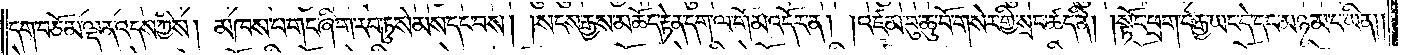དག་བཅོམ་ལྡན་འདས་ཀྱིས། མཁས་པ་གང་ཞིག་རབ་ཏུ་སེམས་དང་བས། །སངས་རྒྱས་མཆོད་རྟེན་དག་ལ་གོམ་འདོར་ན། །འཛམ་བུ་ཆུ་བོ་གསེར་གྱི་སྲང་ཚད་ནི། །སྟོང་ཕྲག་བརྒྱ་ཡང་དེ་དང་མཉམ་པ་ཡིན། །
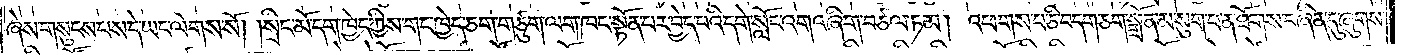ཞེས་གསུངས་པས་དེ་ཡང་ལེགས་སོ། །སྲིང་མོ་དག་ཁྱེད་ཀྱིས་གང་ཁྱེད་ཅག་གཙུག་ལག་ཁང་སྟོན་པར་བྱེད་པའི་དགེ་སློང་འགའ་ཞིག་བཙལ་ཏམ། འཕགས་པ་ཅི་བདག་ཅག་སྒྲོན་མ་སུག་པ་ན་ཐོགས་བཞིན་དུ་ཞུགས་
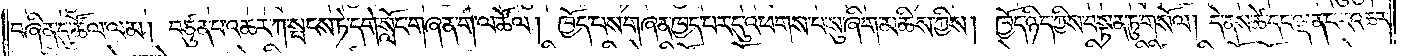བཞིན་དུ་ཚོལ་ལམ། བཙུན་པ་འཆར་ཀ་སྤངས་ཏེ་དགེ་སློང་གཞན་ག་ལ་ཚོལ། ཁྱོད་པས་གཞན་ཁྱད་པར་དུ་འཕགས་པ་སུ་ཞིག་མཆིས་ཀྱིས། ཁྱོད་ཉིད་ཀྱིས་བསྟན་ཏུ་གསོལ། དེ་ནས་ཚེ་དང་ལྡན་པར་འཆར་
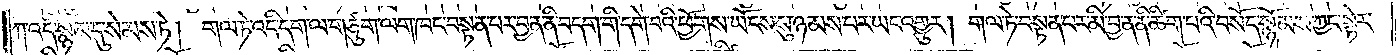ཀ་འདི་སྙམ་དུ་སེམས་ཏེ། གལ་ཏེ་འདི་དག་ལ་གཙུག་ལག་ཁང་བསྟན་པར་བྱ་ན་ནི་བདག་གི་དགེ་བའི་ཕྱོགས་ཡོངས་སུ་ཉམས་པར་ཡང་འགྱུར། གལ་ཏེ་བསྟན་པར་མི་བྱ་ན་ནི་ཚིག་པའི་བསོད་སྙོམས་ཀྱང་སྟེར་
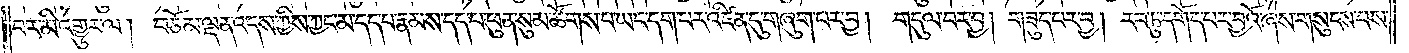བར་མི་འགྱུར་ལ། བཅོམ་ལྡན་འདས་ཀྱིས་ཀྱང་མ་དད་པ་རྣམས་དད་པ་ཕུན་སུམ་ཚོགས་པ་ཡང་དག་པར་འཛིན་དུ་གཞུག་པར་བྱ། གདུལ་བར་བྱ། གཟུད་པར་བྱ། རབ་ཏུ་དགོད་པར་བྱའོ་ཞེས་གསུངས་པས་
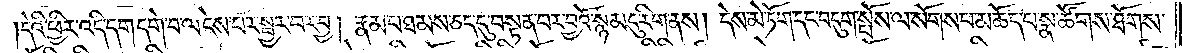དེའི་ཕྱིར་འདི་དག་དགེ་བ་ལ་ངེས་པར་སྦྱར་བར་བྱ། རྣམ་པ་ཐམས་ཅད་དུ་བསྟན་པར་བྱའོ་སྙམ་དུ་རིག་ནས། དེས་མེ་ཏོག་དང་བདུག་སྤོས་ལ་སོགས་པ་མཆོད་པ་སྣ་ཚོགས་ཐོགས་
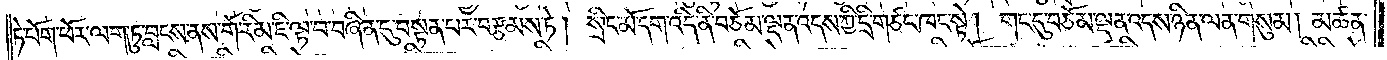ཏེ་པོག་ཕོར་ལག་ཏུ་བླངས་ནས་གོ་རིམ་ཇི་ལྟ་བ་བཞིན་དུ་བསྟན་པར་བརྩམས་ཏེ། སྲིང་མོ་དག་འདི་ནི་བཅོམ་ལྡན་འདས་ཀྱི་དྲི་གཙང་ཁང་སྟེ། གང་དུ་བཅོམ་ལྡན་འདས་ཉིན་ལན་གསུམ། མཚན་
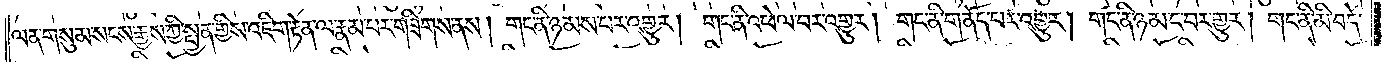ལན་གསུམ་སངས་རྒྱས་ཀྱི་སྤྱན་གྱིས་འཇིག་རྟེན་ལ་རྣམ་པར་གཟིགས་ནས། གང་ནི་ཉམས་པར་འགྱུར། གང་ནི་འཕེལ་བར་འགྱུར། གང་ནི་གནོད་པར་འགྱུར། གང་ནི་ཉམ་ང་བར་གྱུར། གང་ནི་མི་བདེ་
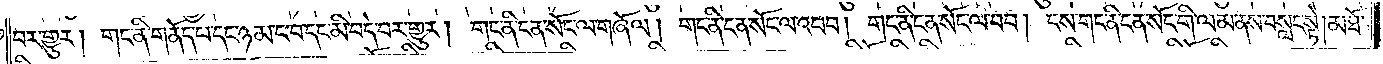བར་གྱུར། །གང་ནི་གནོད་པ་དང་ཉམ་ང་བ་དང་མི་བདེ་བར་གྱུར། གང་ནི་ངན་སོང་ལ་གཞོལ། གང་ནི་ངན་སོང་ལ་འབབ། གང་ནི་ངན་སོང་ལ་བབ། ངས་གང་ནི་ངན་སོང་གི་ལམ་ནས་བསླངས་ཏེ། མཐོ་
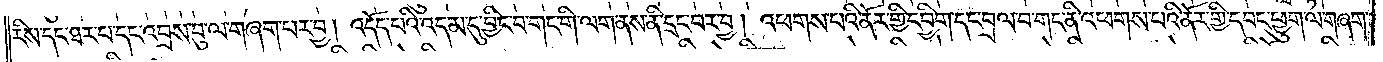རིས་དང་ཐར་པ་དང་འབྲས་བུ་ལ་གཞག་པར་བྱ། འདོད་པའི་འདམ་དུ་བྱིང་བ་གང་གི་ལག་ནས་ནི་དྲང་བར་བྱ། འཕགས་པའི་ནོར་གྱི་དབྱིག་དང་བྲལ་བ་གང་ནི་འཕགས་པའི་ནོར་གྱི་དབང་ཕྱུག་ལ་གཞག་
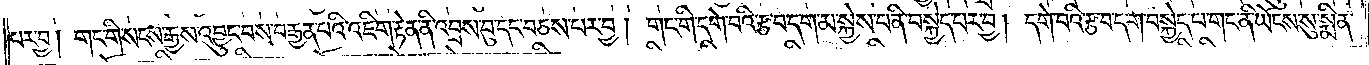པར་བྱ། གང་གི་སངས་རྒྱས་འབྱུང་བས་བརྒྱན་པའི་འཇིག་རྟེན་ནི་འབྲས་བུ་དང་བཅས་པར་བྱ། གང་གི་དགེ་བའི་རྩ་བ་དག་མ་སྐྱེས་པ་ནི་བསྐྱེད་པར་བྱ། དགེ་བའི་རྩ་བ་དག་བསྐྱེད་པ་གང་ནི་ཡོངས་སུ་སྨིན་
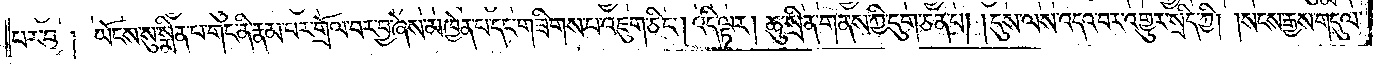པར་བྱ། ཡོངས་སུ་སྨིན་པ་གང་ནི་རྣམ་པར་གྲོལ་བར་བྱ་ཞེས་མཁྱེན་པ་དང་གཟིགས་པ་འཇུག་ཅིང༌། འདི་ལྟར། ཆུ་སྲིན་གནས་ཀྱི་དུག་ཅན་པ། །དུས་ལས་འདའ་བར་འགྱུར་སྲིད་ཀྱི། །སངས་རྒྱས་གདུལ་
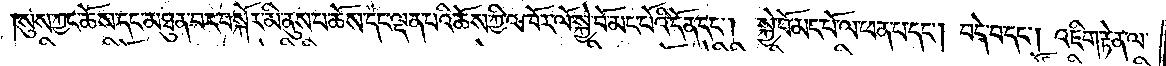སུས་ཀྱང་ཆོས་དང་མཐུན་པར་བསྐོར་མི་ནུས་པ་ཆོས་དང་ལྡན་པའི་ཆོས་ཀྱི་འཁོར་ལོ་སྐྱེ་བོ་མང་པོའི་དོན་དང༌། སྐྱེ་བོ་མང་པོ་ལ་ཕན་པ་དང༌། བདེ་བ་དང༌། འཇིག་རྟེན་ལ་
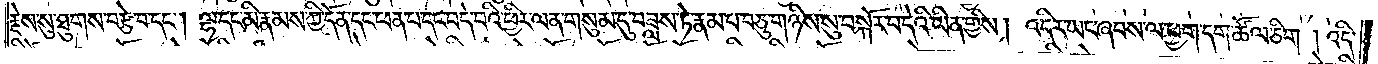རྗེས་སུ་ཐུགས་བརྩེ་བ་དང༌། ལྷ་དང་མི་རྣམས་ཀྱི་དོན་དང་ཕན་པ་དང་བདེ་བའི་ཕྱིར་ལན་གསུམ་དུ་བཟླས་ཏེ་རྣམ་པ་བཅུ་གཉིས་སུ་བསྐོར་བ་དེའི་ཡིན་གྱིས། འདིར་ཡང་ཞབས་ལ་ཕྱག་དག་ཚོལ་ཅིག །འདི་
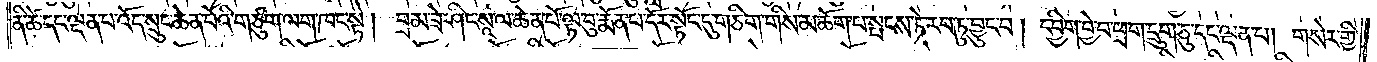ནི་ཚེ་དང་ལྡན་པ་འོད་སྲུང་ཆེན་པོའི་གཙུག་ལག་ཁང་སྟེ། བྲམ་ཟེ་ཤིང་སཱ་ལ་ཆེན་པོ་ལྟ་བུ་རྨོན་པ་དོར་སྟོང་དུ་གཅིག་གིས་མཆོག་པ་སྤངས་ཏེ་རབ་ཏུ་བྱུང་བ། དབྱིག་བྱེ་བ་ཕྲག་དྲུག་ཅུ་དང་ལྡན་པ། གསེར་གྱི་
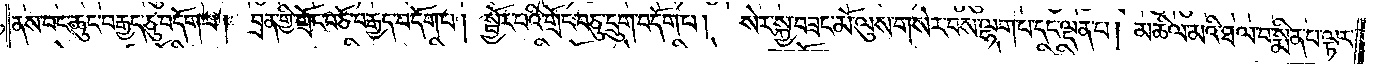ནས་བང་ཆུང་བརྒྱད་ཅུ་བདོག་པ། བྲན་གྱི་གྲོང་བཅོ་བརྒྱད་བདོག་པ། སྦྱོར་པའི་གྲོང་བཅུ་དྲུག་བདོག་པ། སེར་སྐྱ་བཟང་མོ་ལུས་གསེར་བས་ལྷག་པ་དང་ལྡན་པ། མཆིལ་མའི་ཐལ་བ་སྨིན་པ་ལྟར་
